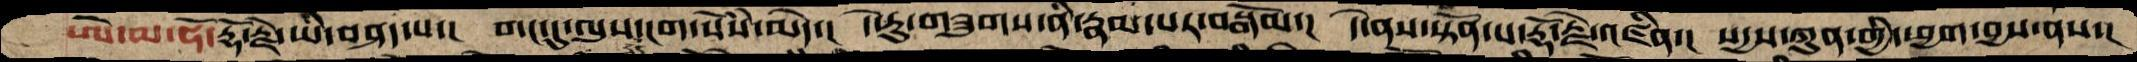ཨེ་མ་ཧོ་རྡོ་རྗེ་ཡི་བཤད་པ་།   གང་དུ་ལུས་ངག་སེསཾ་མེད་།  དེ་རུ་གཟུགས་ནི་རྣམ་པར་བསྒོམ་།  དེ་ནས་སྟོན་པ་རྡོ་རྗེ་འཛིན་།  སདྱས་ཀུན་གྱི་ཕྱག་བྱས་ནས་།  སདྱས་ཀུན་གྱི་ཕྱག་བྱས་ནས་།
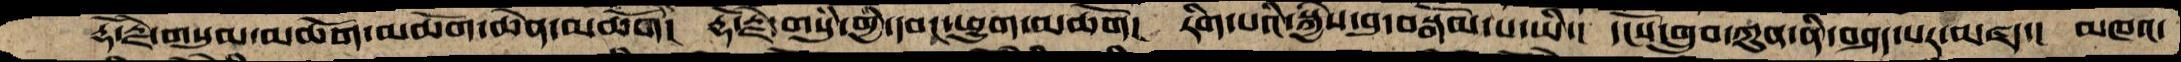རྡོ་རྗེ་གསུམ་མཆོག་མཆོག་ཆེན་མཆོག།  རྡོ་རྗེ་གསུཾ་གྱི་དབང་ཕྱུག་མཆོག།   རིག་པའི་སྐྱེས་བུ་བསྒོམ་པ་ཡི་།  དངོས་གྲུབ་ཀུན་ནི་བཤད་པར་མཛད་།  མཁའ་
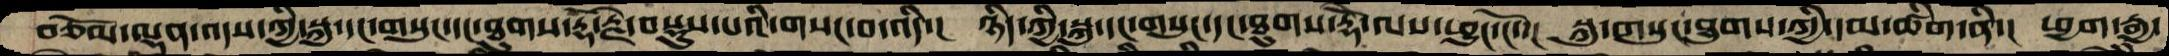བཅོམ་ལྡན་འདས་ཀྱི་སྐུ་དང་གསུང་དང་ཐུགས་རྡོ་རྗེ་བསྡུས་པའི་གསང་བ་འདི་།   ཉིད་ཀྱི་སྐུ་དང་གསུང་དང་ཐུགས་རྡོེ་ལས་ཕྱུང་ངོ་་།  སྐུ་གསུང་ཐུགས་ཀྱི་དམ་ཚིག་ནི་།  ཕྱག་རྒྱ་
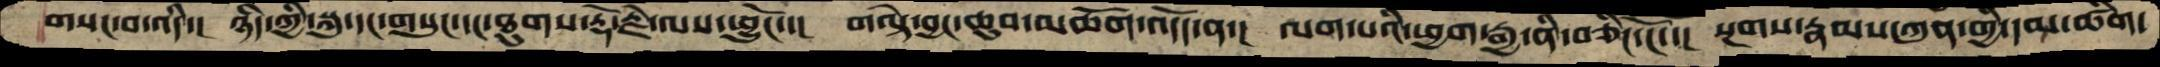གསང་བ་འདི་།  ཉིད་ཀྱི་སྐུ་དང་གསུང་དང་ཐུགས་རྡོ་རྗེ་ལས་ཕྱུངོ་་།  གལྟེ་བྱང་ཆུབ་མཆོག་འདོད་ན་།  ལག་པའི་ཕྱག་རྒྱ་ནི་བཅིང་ངོ་་།  སྔགས་རྣམས་ཀུན་གྱི་དམ་ཚིག་
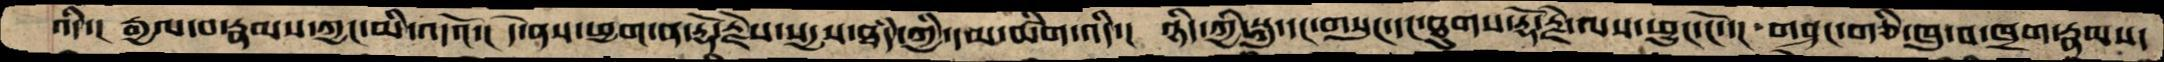འདི་།  རྒྱལ་བ་རྣམས་ཀྱང་མི་འདའོ་།  དེ་ནས་ཕྱག་ན་རྡོ་རྗེས་སདྱས་ཐཾད་ཀྱི་དམ་ཚིག་འདི་།  ཉིད་ཀྱི་སྐུ་དང་གསུང་དང་ཐུགས་རྡོ་རྗེ་ལས་ཕྱུང་ངོ་་།  གཤང་གཅི་ཁུ་བ་ཁྲག་རྣམས་
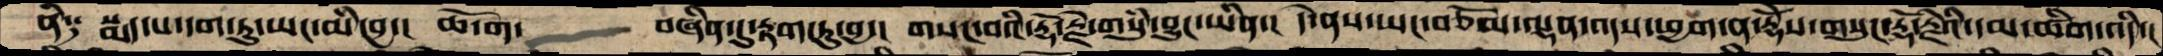ནི༑   སྨད་པ་དག་ཏུ་ཡང་མི་བྱ་།  ཆོ་ག་   བཞིན་དུ་རྟག་ཏུ་བྱ་།  གསང་བའི་རྡོ་རྗེ་གསུཾ་བྱུང་ཡིན་།   དེ་ནས་ཡང་བཅོམ་ལྡན་འདས་ཕྱག་ན་རྡོེས་གསུང་རྡོ་རྗེའི་དམ་ཚིག་འདི་།
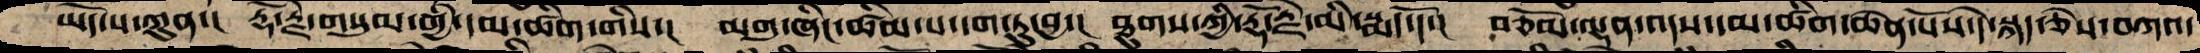ཡོད་པ་ཀུན་།  རྡོ་རྗེ་གསུམ་གྱི་དམ་ཚིག་གིས་།  མགུ་ཞིང་ཚིམ་པ་དག་ཏུ་བྱ་།  ཐུགས་ཀྱི་རྡོ་རྗེ་མི་སྨད་དོ་།  བཅོམ་ལྡན་འདས་དམ་ཚིག་ཆེན་པོས་དེ་སྐད་ཅེས་བཀའ་
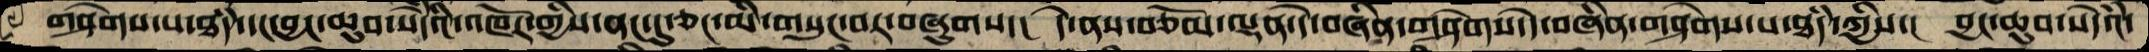གཤེགས་པ་ཐཾད་དང་བྱང་ཆུབ་སེདཾའི་འཁོར་གྱིས་ནང་དུ་ཅང་མི་གསུང་བར་བཞུགས་། དེ་ནས་བཅོམ་ལྡན་དེ་བཞིན་གཤེགས་དེ་བཞིན་གཤེགས་པ་ཐཾད་ཀྱིས་། བྱང་ཆུབ་སེདའཾ་
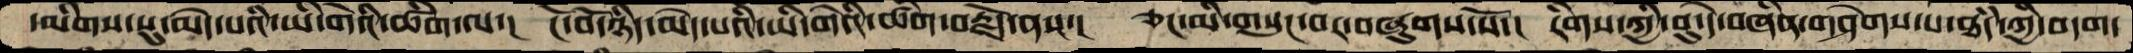དམིགས་སུ་མེད་པའི་ཡི་གེའི་ཚིག་ལ་།  ངོ་བོ་ཉིད་མེད་པའི་ཡི་གེའི་ཚིག་བརྗོད་ནས་།  ཅང་མི་གསུང་བར་བཞུགས་སོ་།  རིགས་ཀྱི་བུ་དེ་བཞིན་གཤེགས་པ་ཐཾད་ཀྱི་བདག་
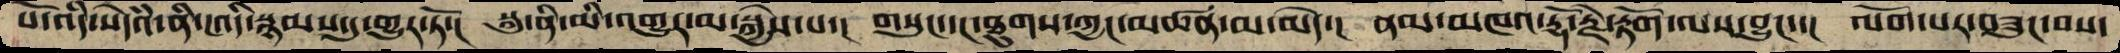པོ་འདི་སེདཾའ་ནི་འདི་སྙམས་དུ་གྱུར་ཏོ་།  སྐུ་ནི་མི་འགྱུར་མ་སྐྱེས་པ་།  གསུང་དང་ཐུགས་ཀྱང་མཚན་མ་མེད་།  ནམ་མཁའ་རྡོ་རྗེ་རྟོག་ལས་བྱུང་་།  ལོག་པར་བཟུང་བས་
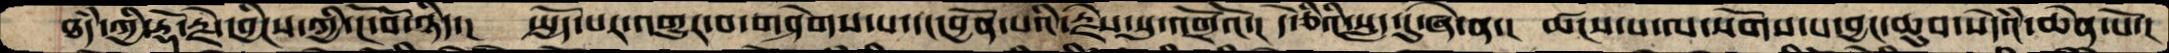ཐཾད་ཀྱི་རྡོ་རྗེ་དབྱིངས་ཀྱི་ངོ་བོ་ཉིད་།  སྤྱོད་པར་འགྱུར་བ་གཤེགས་པ་དང་བྱོན་པའི་རྗེས་སུ་འགྲོའོ་།  དེ་ཅིའི་སླད་དུ་ཞེ་ན་།  ཚངས་པ་ལ་སོགས་པ་བྱང་ཆུབ་སེདཾའ་ཆེན་པོ་།
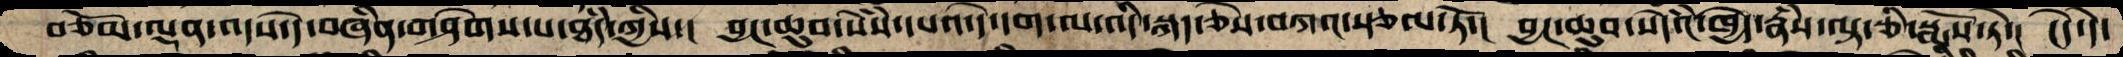བཅོམ་ལྡན་འདས་དེ་བཞིན་གཤེགས་པ་ཐཾད་ཀྱིས་།  བྱང་ཆུབ་སེསཾ་དཔའ་དེ་དག་ལ་འདི་སྐད་ཅེས་བཀའ་སྩལ་ཏོ་།  བྱང་ཆུབ་སེདཾའ་ཁྱེད་རྣཾས་ལྟ་ཅི་སྨོས་ཏེ་།  ངེད་དེ་
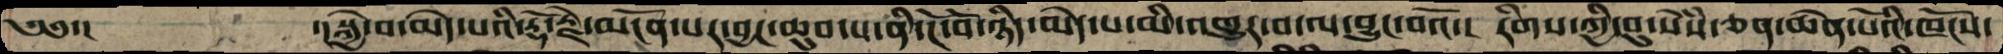༄༅་།          ་། སྐྱེ་བ་མེད་པའི་རྡོ་རྗེ་མངོན་པར་བྱང་ཆུབ་པ་ནི་ངོ་བོ་ཉིད་མེད་པ་མི་འགྱུར་བ་ལ་བྱུང་བའོ་།  རིགས་ཀྱི་བུ་སེསཾ་ཅན་ཆེན་པོའི་ཁོངས་
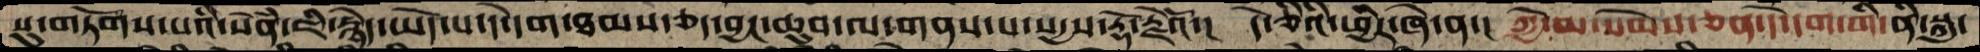པུ་གཏོགས་པའི་སེནཾ་ཇི་རྙེད་ཡོད་པ་དེ་དག་ཐམས་ཅད་བྱང་ཆུབ་ལ་གནས་པ་སདྱས་རྡོ་རྗེའོ་།  དེ་ཅིའི་ཕྱིར་ཞེ་ན་།  ཀྱེ་མ་སེམས་ཅན་དེ་དག་གི་ནི་སྐུ་
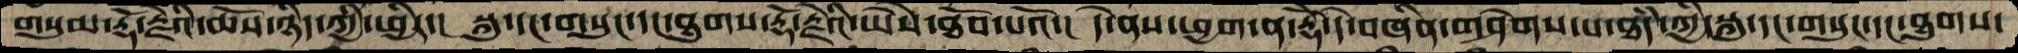གསུམ་རྡོ་རྗེའི་ཆོས་ཉིད་ཀྱི་ཕྱིར་།  སྐུ་དང་གསུང་དང་ཐུགས་རྡོ་རྗེའི་ཡཻས་ཐོབ་པའོ་།  དེ་ནས་ཕྱག་ན་རྡོེ་དེ་བཞིན་གཤེགས་པ་ཐཾད་ཀྱི་སྐུ་དང་གསུང་དང་ཐུགས་
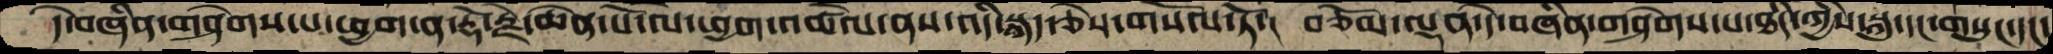དེ་བཞིན་གཤེགས་པ་ཕྱག་ན་རྡོ་རྗེ་ཆེན་པོ་ལ་ཕྱག་འཚལ་ནས་འདི་སྐད་ཅེས་གསོལ་ཏོ་།  བཅོམ་ལྡན་དེ་བཞིན་གཤེགས་པ་ཐདཾ་ཀྱིས་སྐུ་དང་གསུང་དང་
